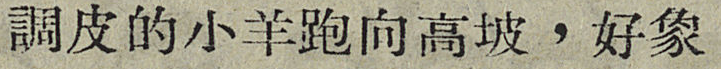調皮的小羊跑向高坡，好象
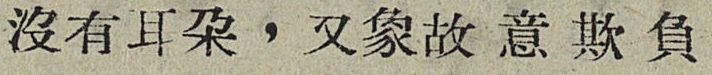沒有耳朶，又象故意欺負
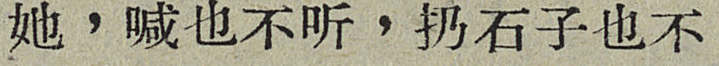她，喊也不听，扔石子也不
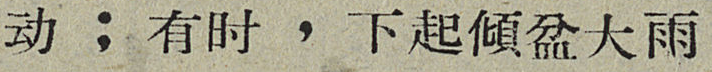动；有时，下起傾盆大雨
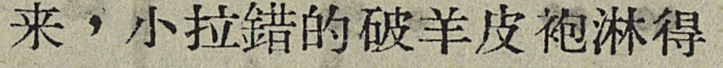来，小拉錯的破羊皮袍淋得
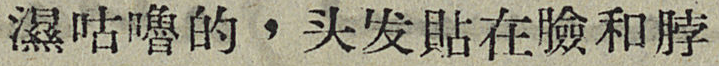濕咕嚕的，头发貼在臉和脖
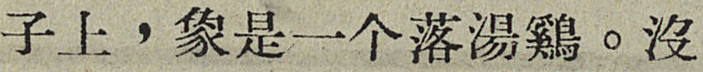子上，象是一个落湯雞。沒
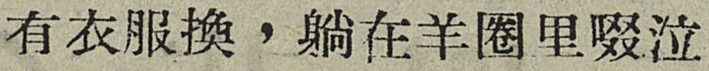有衣服換，躺在羊圈里啜泣
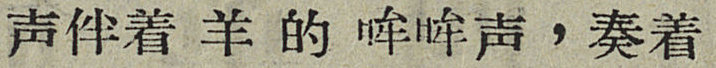声伴着羊的哞哞声，奏着
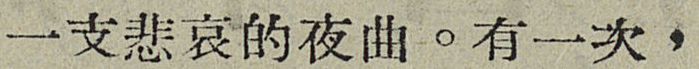一支悲哀的夜曲。又一次，
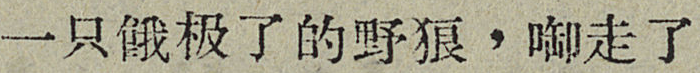一只餓极了的野狼，啣走了
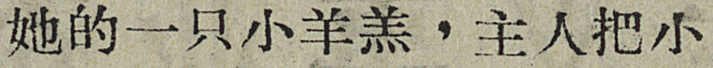她的一只小羊羔，主人把小
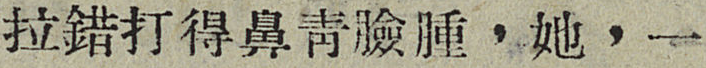拉錯打得鼻靑臉腫，她，一
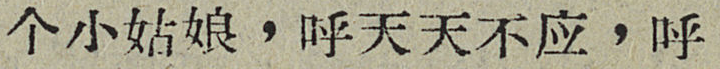个小姑娘，呼天天不应，呼
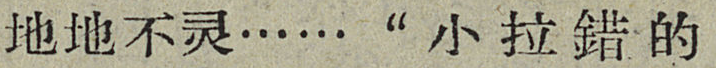地地不灵……“小拉錯的
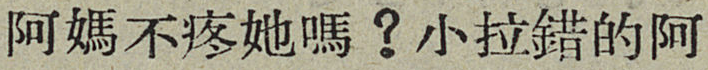阿媽不疼她嗎？小拉錯的阿
